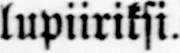lupiiriksi.
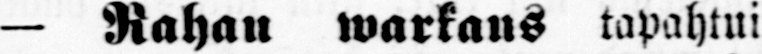— Rahan warkaus tapahtui
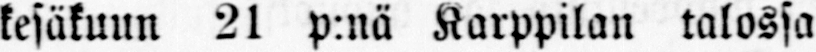kesäkuun 21 p:nä Karppilan talossa
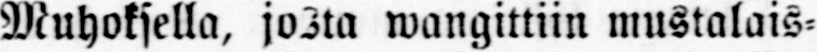Muhoksella, josta wangittiin mustalais-
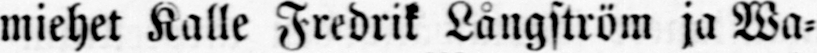miehet Kalle Fredrik Långström ja Wa-
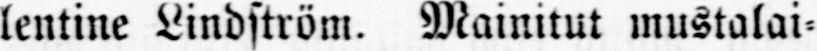lentine Lindström. Mainitut mustalai-
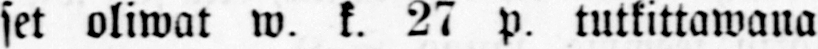set oliwat w. k. 27 p. tutkittawana
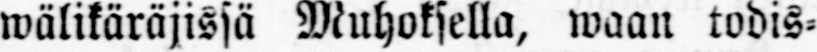wälikäräjissä Muhoksella, waan todis-
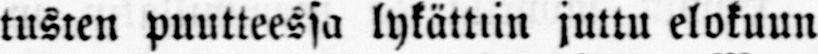tusten puutteessa lykättiin juttu elokuun
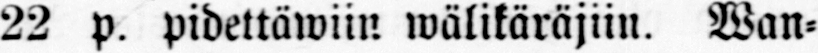22 p. pidettäwiin wälikäräjiin. Wan-
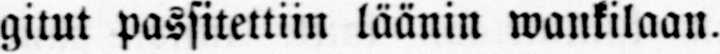gitut passitettiin läänin wankilaan.
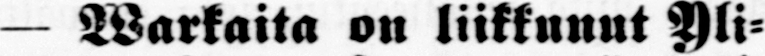— Warkaita on liikkunut Yli-
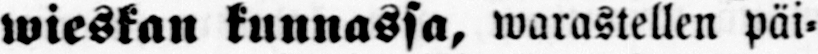wieskan kunnassa, warastellen päi-
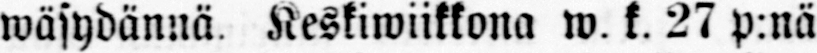wäsydännä, Keskiwiikkona w. k. 27 p:nä
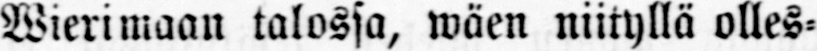Wierimaan talossa, wäen niityllä olles-
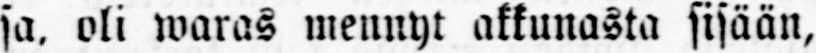sa, oli waras mennyt akkunasta sisään,
